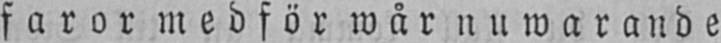faror medför wår nuwarande
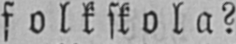folkskola?
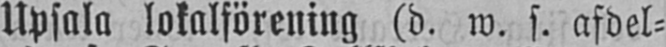Upsala lokalförening (d. w. s. afdel-
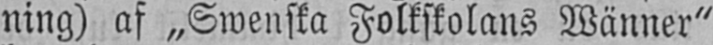ning) af „Swenska Folkskolans Wänner"
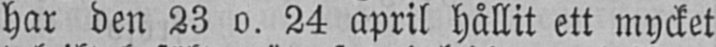har den 23 o. 24 april hållit ett mycket
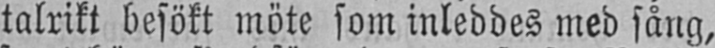talrikt besökt möte som inleddes med sång,
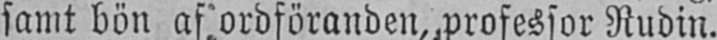samt bön af ordföranden, professor Rudin.
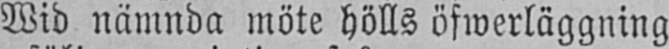Wid nämnda möte hölls öfwerläggning
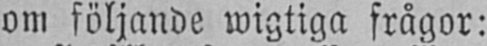om följande wigtiga frågor:
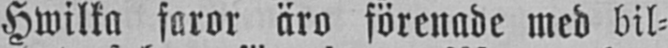Hwilka faror äro förenade med bil-
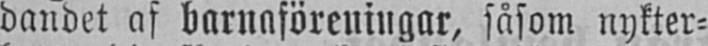dandet af barnaföreningar, såsom nykter-
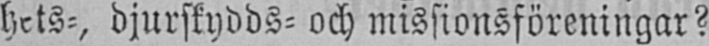hets-, djurskydds- och missionsföreningar?
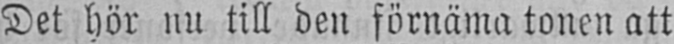Det hör nu till den förnäma tonen att
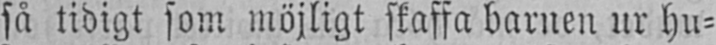så tidigt som möjligt skaffa barnen ur hu-
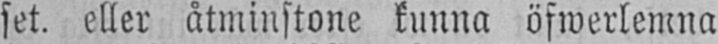set. eller åtminstone kunna öfwerlemna
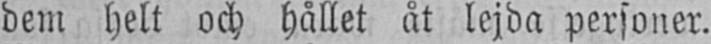dem helt och hållet åt lejda personer.
